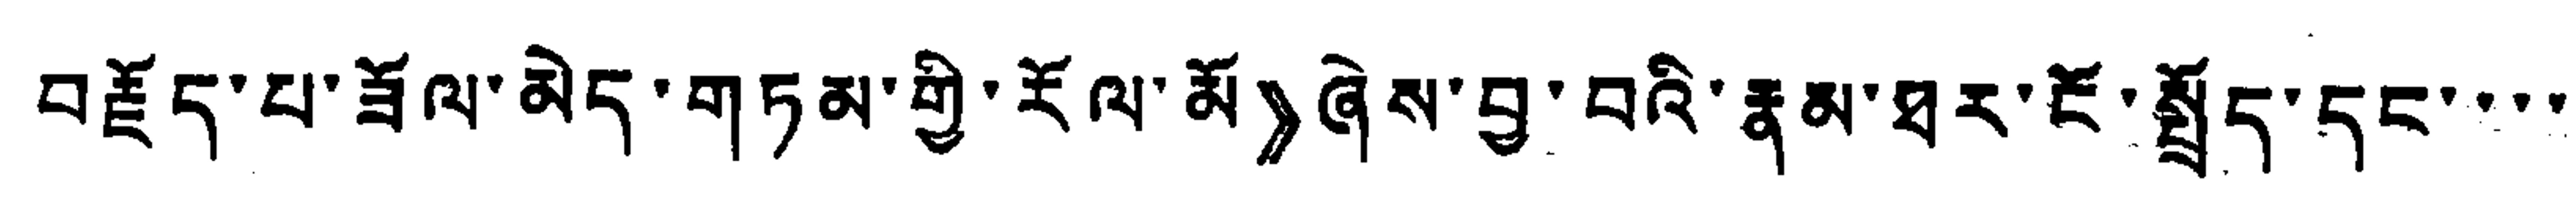བརྗོད་པ་ཟོལ་མེད་གཏམ་གྱི་རོལ་མོ》ཞེས་བྱ་བའི་རྣམ་ཐར་ངོ་སྤྱོད་དང་་་་
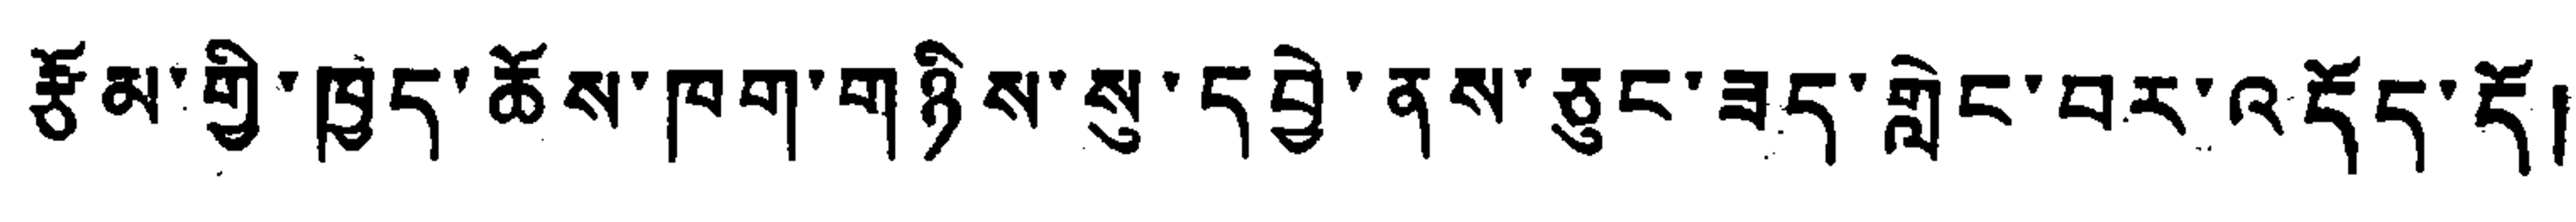རྩོམ་གྱི་ཁྱད་ཆོས་ཁག་གཉིས་སུ་དབྱེ་ནས་ཅུང་ཟད་གླེང་བར་འདོད་དོ།
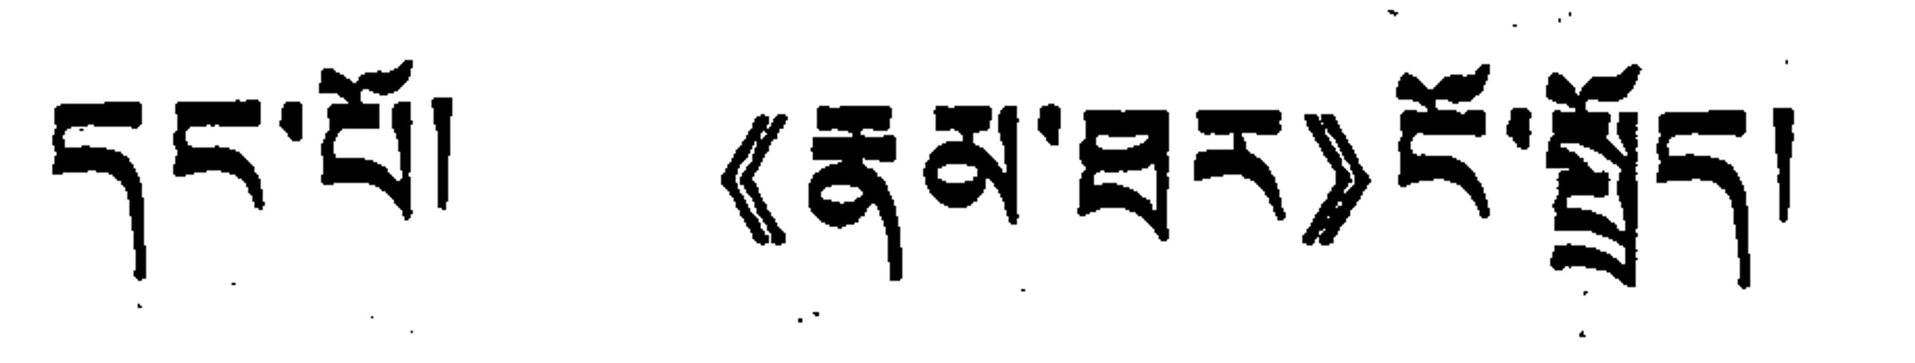དང་པོ། 《རྣམ་ཐར》ངོ་སྤྱོད། །
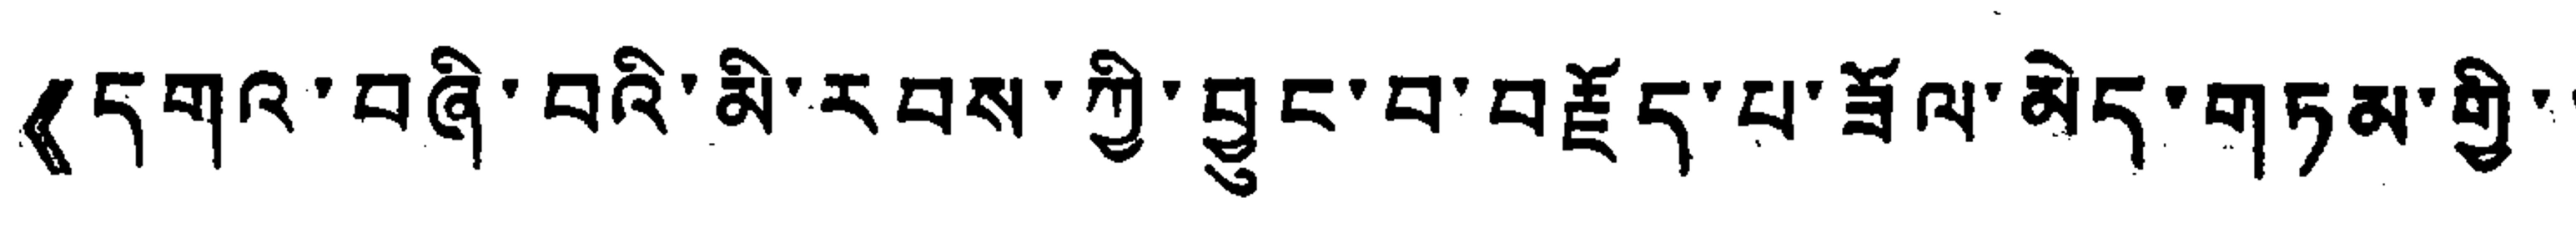《དགའ་བཞི་བའི་མི་རབས་ཀྱི་བྱུང་བ་བརྗོད་པ་ཟོལ་མེད་གཏམ་གྱི་་
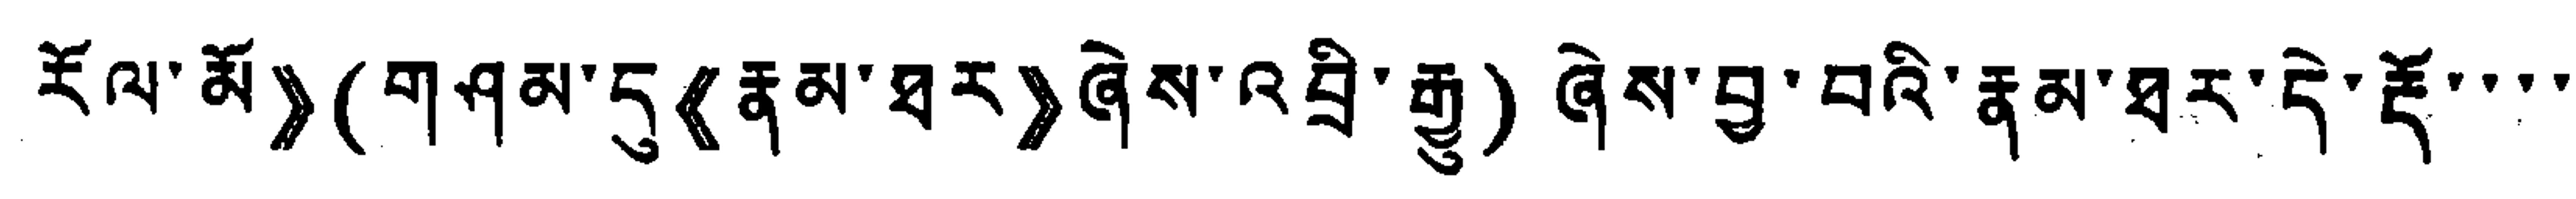རོལ་མོ》(གཤམ་དུ《རྣམ་ཐར》ཞེས་འབྲི་རྒྱ) ཞེས་བྱ་བའི་རྣམ་ཐར་དེ་རྡོ་་་་
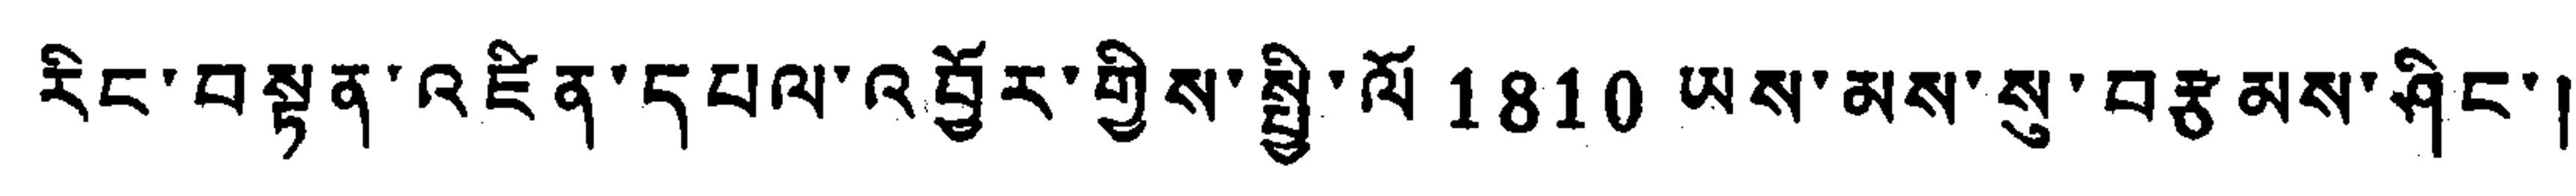རིང་བསྟན་འཛིན་དཔལ་འབྱོར་གྱིས་སྤྱི་ལོ 1810 ཡས་མས་སུ་བརྩམས་ཤིང་།
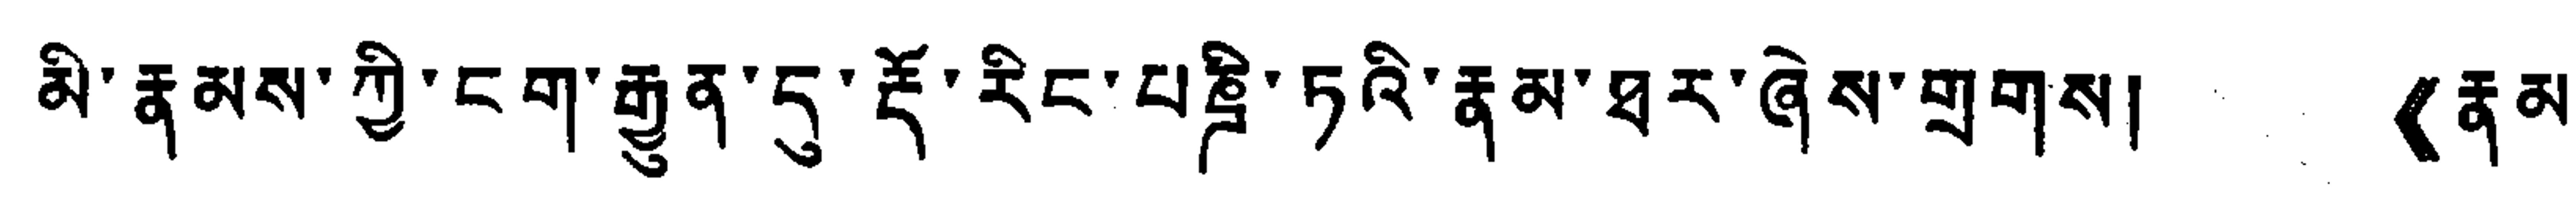མི་རྣམས་ཀྱི་ངག་རྒྱུན་དུ་རྡོ་རིང་པཎྜི་ཏའི་རྣམ་ཐར་ཞེས་གྲགས། 《རྣམ་
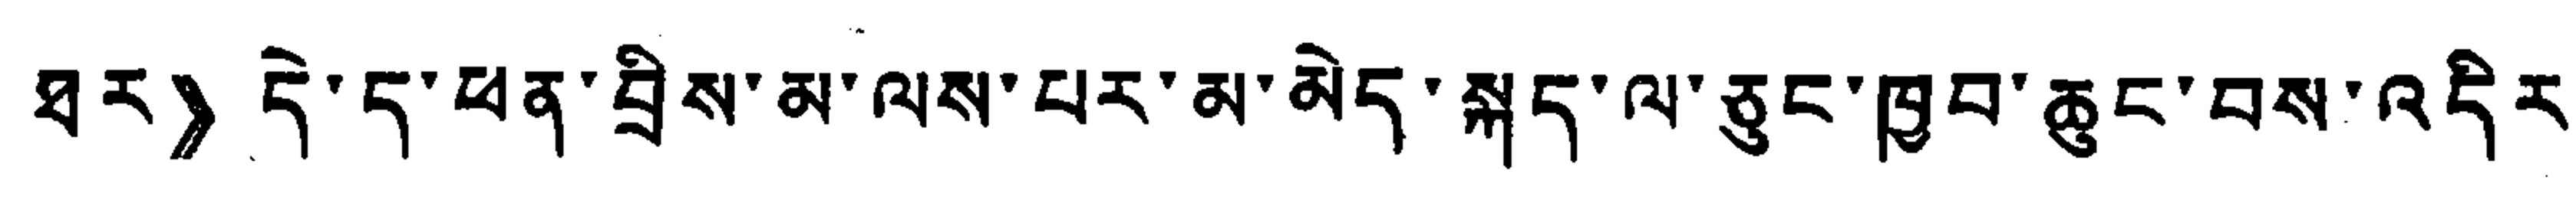ཐར》 དེ་ད་ཕན་བྲིས་མ་ལས་པར་མ་མེད་སྐད་ལ་ཅུང་ཁྱབ་ཆུང་བས་འདིར
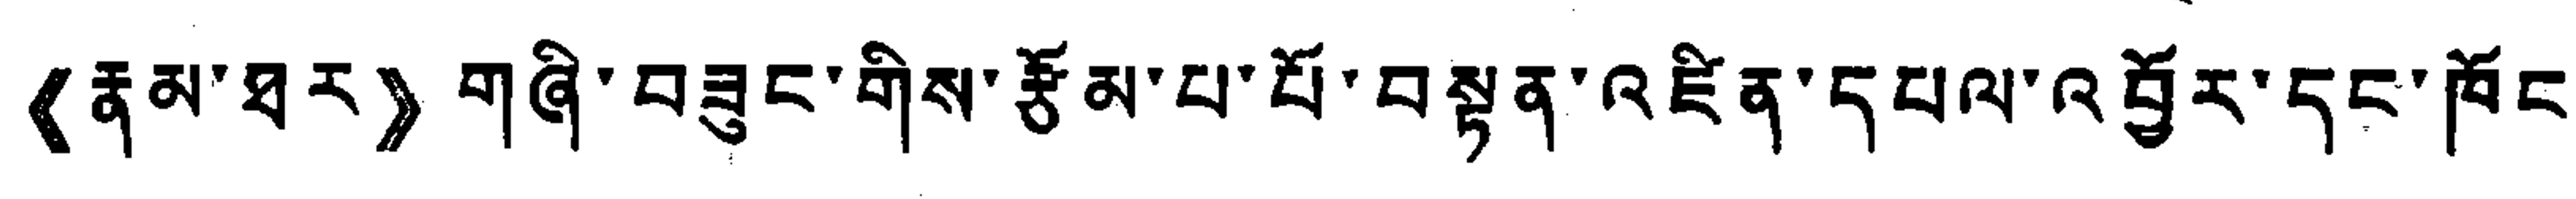《རྣམ་ཐར》 གཞི་བཟུང་གིས་རྩོམ་པ་པོ་བསྟན་འཛིན་དཔལ་འབྱོར་དང་ཁོང་
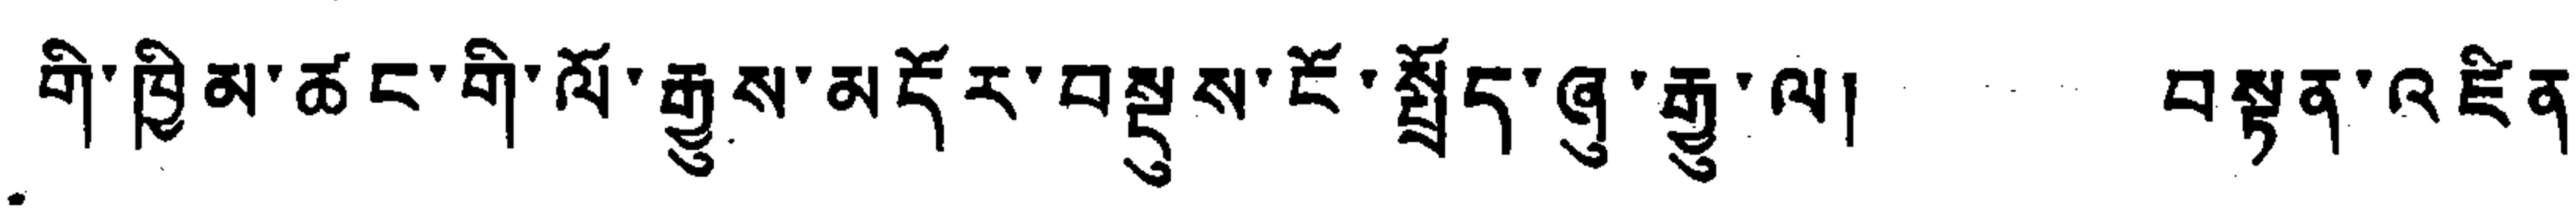གི་ཁྲིམ་ཚང་གི་ལོ་རྒྱུས་མདོར་བསྡུས་ངོ་སྤྱོད་ཞུ་རྒྱ་ལ། བསྟན་འཛིན་
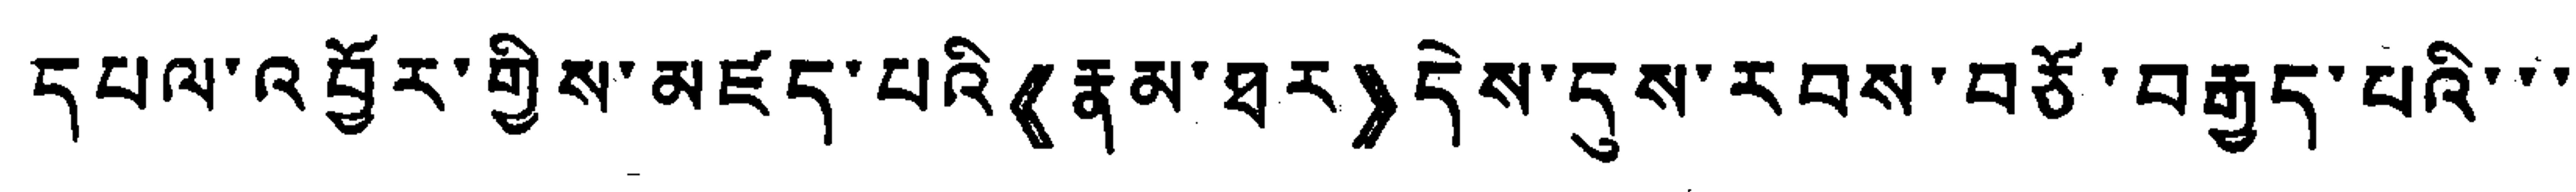དཔལ་འབྱོར་གྱིས་མཛད་པའི《རྣམ་ཐར》དེས་དུས་རབས་བཅོ་བརྒྱད་པའི་་་
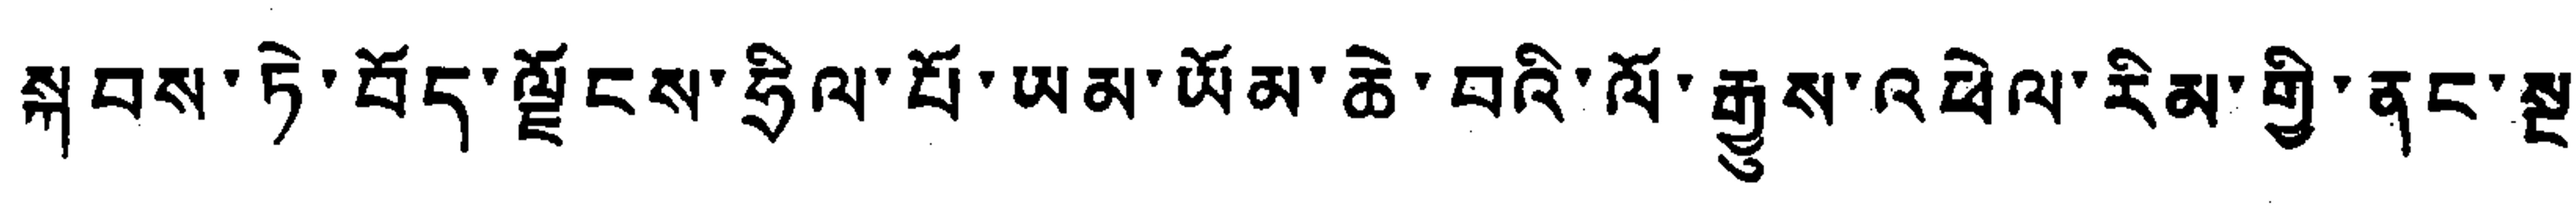སྐབས་ཏེ་བོད་ལྗོངས་ཧྲིལ་པོ་ཡམ་ཡོམ་ཆེ་བའི་ལོ་རྒྱུས་འཕེལ་རིམ་གྱི་ནང་སྔ་
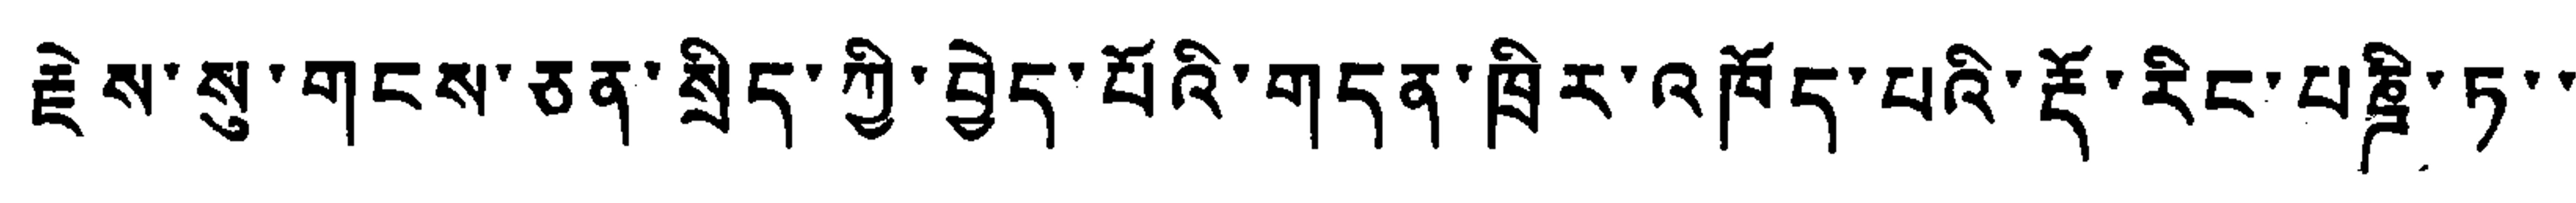རྗེས་སུ་གངས་ཅན་སྲིད་ཀྱི་བྱེད་པོའི་གདན་ཁྲིར་འཁོད་པའི་རྡོ་རིང་པཎྜི་ཏ་་
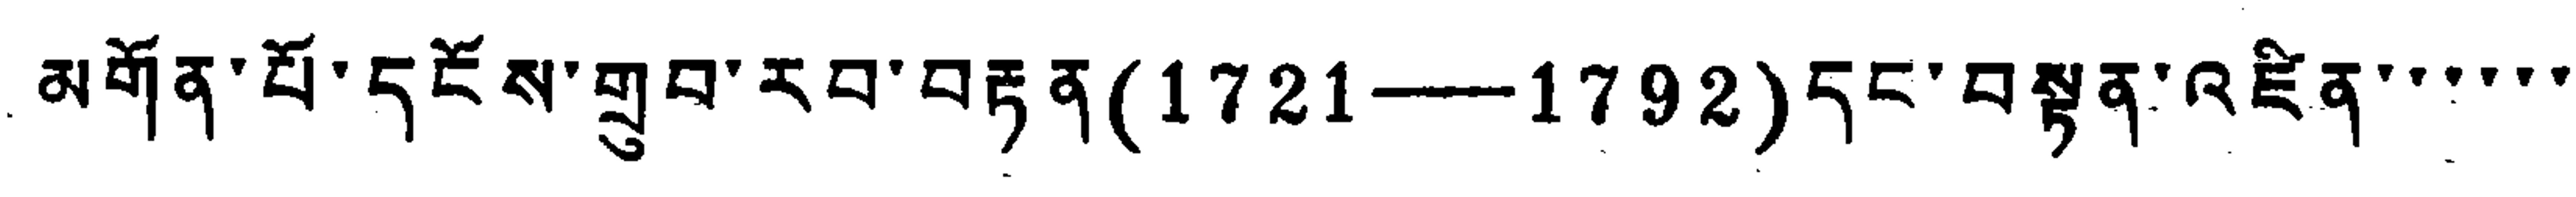མགོན་པོ་དངོས་གྲུབ་རབ་བརྟན (1721—1792) དང་བསྟན་འཛིན་་་་་་
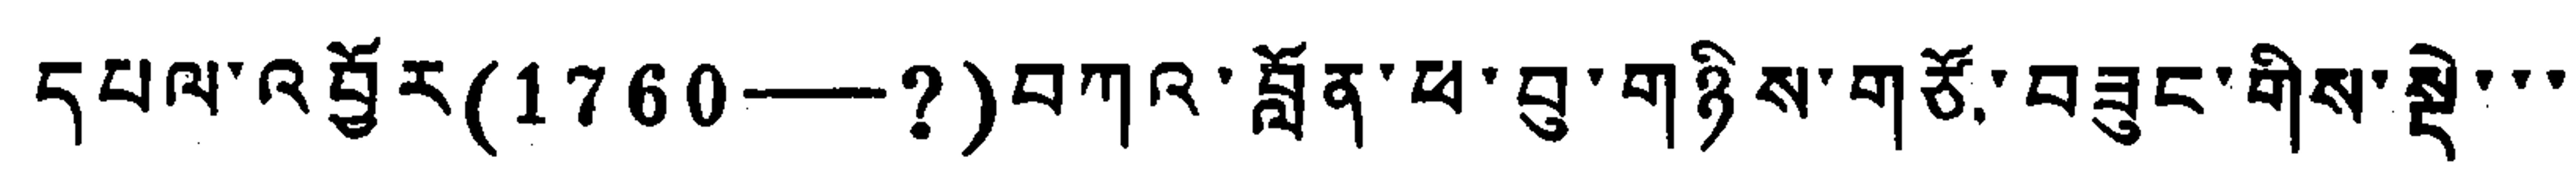དཔལ་འབྱོར (1760—?) བཀའ་བློན་ཕ་བུ་གཉིས་གཙོ་བཟུང་གིས་སྡེ་་་
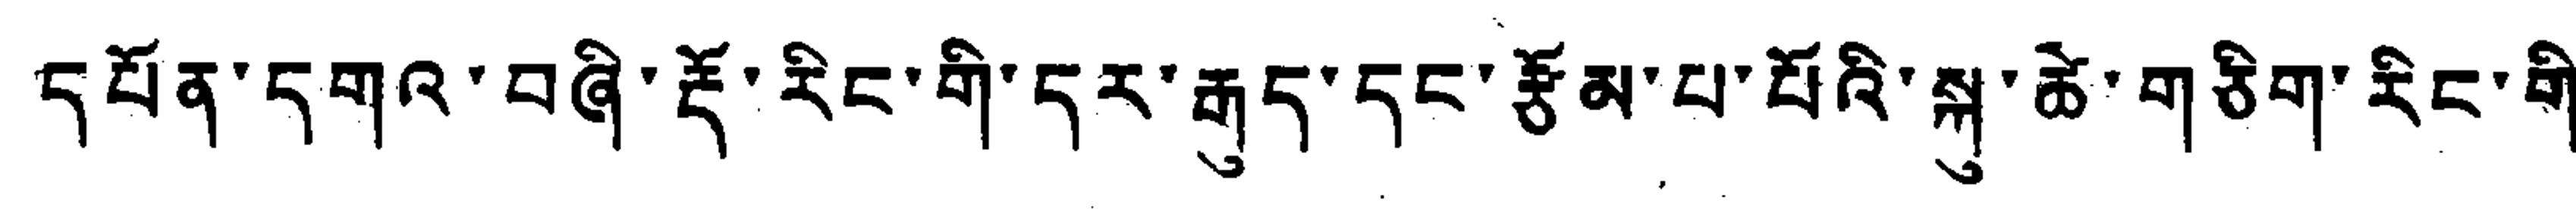དཔོན་དགའ་བཞི་རྡོ་རིང་གི་དར་རྒུད་དང་རྩོམ་པ་པོའི་སྐུ་ཚེ་གཅིག་རིང་གི་
